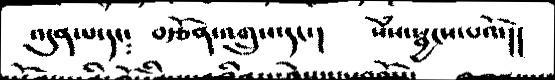འདུན་པ་དང༴  བརྩོན་འགྲུས་དང་།   སེཾས་སྦྱངས་པའོ་།།
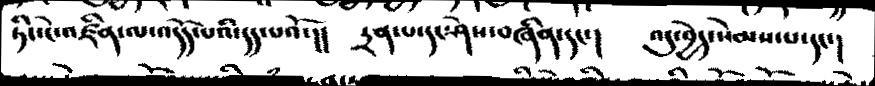ཏིང་ངར་འཛིན་ལ་འདོད་པའི་དད་པའོ་།།   དྲན་པ་དང་ཤེས་བཞིན་དང་།   འདུ་བྱེད་སེམས་པ་དང་།
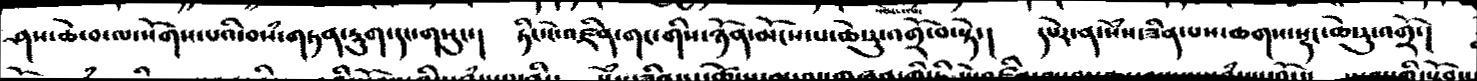ཤས་ཆེ་བ་ལ་སོགས་པའི་བསཾ་གཏན་རྟུག་དང་གསུང་།    ཏིང་ངེ་འཛིན་གང་གིས་ཉོན་མོངས་པ་ཆེ་རུ་འགྲོ་བ་སྟེ་།   དཔེར་ན་སེཾས་ཟིན་པས་ཆགས་སྡང་ཆེ་རུ་འགྲོ་།
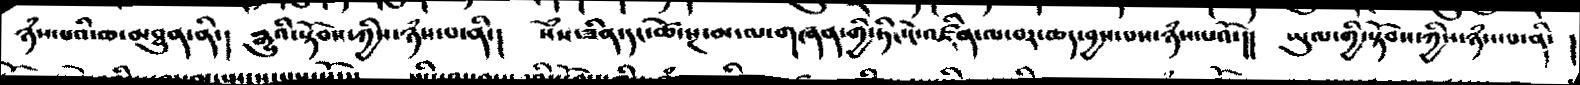ཉཾས་པའི་ཆ་མཐུན་ནི་།   རྒྱུའི་སྟོབས་ཀྱིས་ཉཾས་པ་ནི་།   སེཾས་ཟིན་དང་ཚེ་སྔ་མ་ལ་གཞན་གྱི་ཏིང་ངེ་འཛིན་ལ་བར་ཆད་བྱས་པས་ཉཾས་པའོ་།།    ཡུལ་གྱི་སྟོབས་ཀྱིས་ཉཾས་པ་ནི་  །
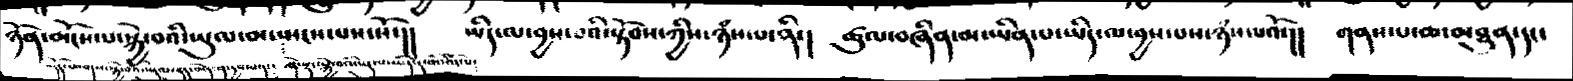ཉོན་མོངས་པ་སྐྱེ་བའི་ཡུལ་མ་སྤངས་པས་སོ་།།  ཡིད་ལ་བྱས་པའི་སྟོབས་ཀྱིས་ཉཾས་པ་ནི་།  ཚུལ་བཞིན་མ་ཡིན་པ་ཡིད་ལ་བྱས་པས་ཉཾས་པའོ་།།  གནས་པ་ཆ་མཐུན་དང་
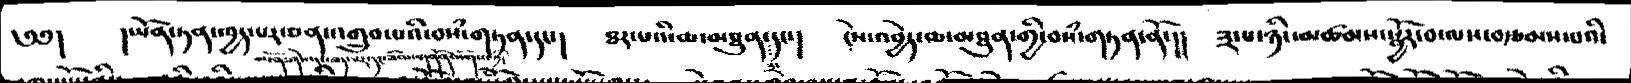༄༅།  །ཡོན་ཏན་ཁྱད་པར་ཅན་འགྲུབ་པའི་བསཾ་གཏན་དང་།   ཐར་པའི་ཆ་མཐུན་༣་དང་།   ངེས་འབྱེད་ཆ་མཐུན་གྱི་བསཾ་གཏན་ནོ་།།  ༣་པ་ཉི་མཚམས་སྦྱོར་བ་ལས་བརྩམས་པའི་
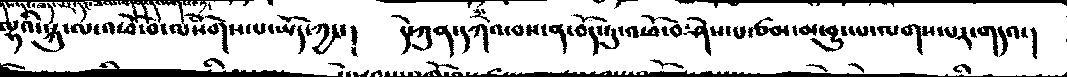ལྷའི་སྐུ་ལ་འཕོ་བ་ལསོགས་པ་ཡོད་ཀྱང་།   དེ་ཀུན་དཀའ་བས་ན་བོད་ཏུ་འཕོ་བ་ཤེས་པ་ཙམ་མ་བྱུང་པ་ལགས་པར་གདའ་།
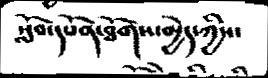སློབ་དཔོན་ཐོགས་མེད་མྱེད་ཀྱིས་
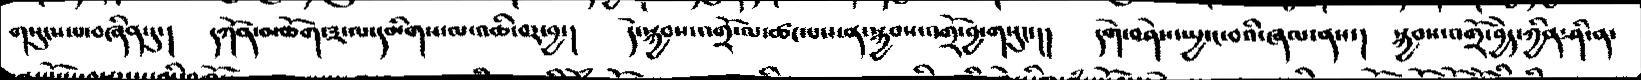གསུངས་པ་བཞིན་དུ་དཀོན་མཆོག་༣་ལ་དམིགས་ལ་འཆི་བར་བྱ་།   དེ་སྐྱབས་འགྲོ་ལ་ཚང་པས་ན་སྐྱབས་འགྲོ་བྱ་གསུང་།།   དགེ་བཤེས་སྤྱ་ང་བའི་ཞལ་ནས་།   སྐྱབས་འགྲོ་བྱེད་ཀྱིན་ཤི་ན་
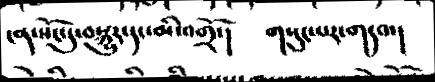ངན་སོང་དུ་བསྐྱུར་དང་མི་འགྲོ་།   གསུང་པར་གདབ་།
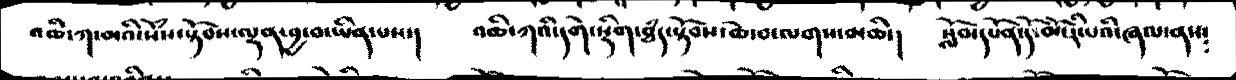འཆི་ཀ་མའི་སེཾས་སྟོབས་ལྡན་བྱ་བ་ཡིན་པས་།  འཆི་ཀའི་དགེ་སྡིག་ཐཾད་སྟོབས་ཆེ་བ་ལགས་མཆི་།  སློབ་དཔོན་དོ་མོ་རི་པའི་ཞལ་ནས༴
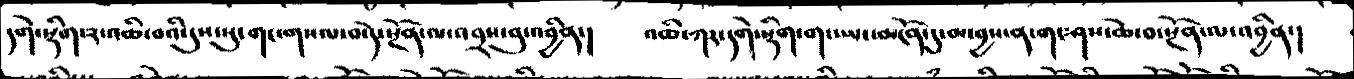དགེ་སྡིག་༢་འཆི་བའི་དུས་སུ་གང་གསལ་བ་དེ་སྔོན་ལ་འབྲས་བུ་འབྱིན་།  འཆི་ཀར་དགེ་སྡིག་གང་ཡང་མངོན་དུ་མ་བྱས་ན་གང་ཤས་ཆེ་བ་སྔོན་ལ་འབྱིན་།
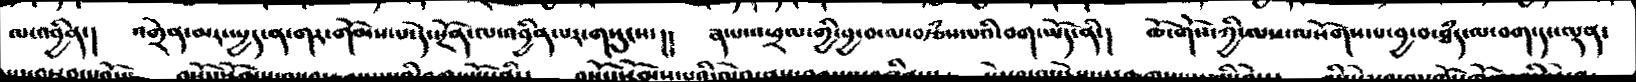ལ་འབྱིན་།  འགྲེན་མར་སྤྱད་ན་གར་གོམས་པ་དེ་སྔོན་ལ་འབྱིན་པར་གསུངས་།།  ན་པ་འཕྲལ་གྱི་བྱ་བ་ལ་བརྩཾས་པའི་བག་ཡོད་ནི་།  ཆོ་གོས་ཀྱི་ལས་ལསོགས་པ་བྱ་བ་ཐཾད་ལ་བག་དང་ལྡན་
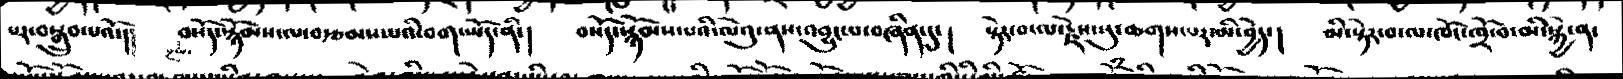པར་བསྒྲུག་པའོ་།།   བསོད་སྙོམས་ལ་བརྩམས་པའི་བག་ཡོད་ནི་།   བསོད་སྙོམས་པའི་ལེའུ་ནས་འབྱུང་པ་བཞིན་དུ་།   སྟེར་བ་ལ་རྗེས་སུ་ཆགས་པར་མི་བྱེད་།   མི་སྟེར་བ་ལ་ཁོང་ཁྲོ་བ་མི་སྐྱེ་ན་
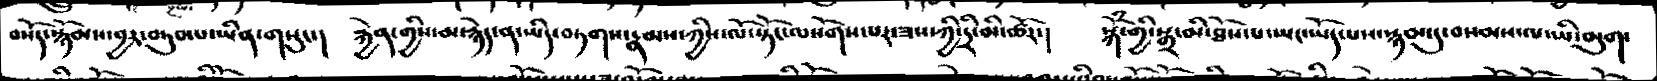བསོད་སྙོམས་བྱར་བཏུབ་པ་ཡིན་གསུང་།  རྐྱེན་གྱིས་མ་རྙེད་ན་ཡིད་བཏགས་རྣམས་ཀྱི་ལོ་སྟོང་ལསོགས་པར་ཟས་ཀྱི་དྲི་མི་ཚོར་།  སྐོཾ་གྱི་སྒྲ་མི་ཐོས་པ་ཡང་ཡོད་པས་སྙམ་དུ་བསམས་ལ་ཡི་མུག་
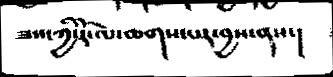ཟས་ཀྱི་རོ་ལ་ཆགས་པར་བྱས་ནས་།
